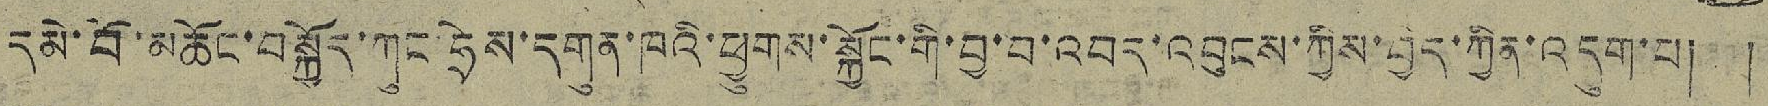དམེ་བོ་མཆོང་བསྐྱོད་ཀུང་ཧྲེས་དགུན་ཁའི་ཕྱུགས་སྐྱོང་གི་བྱ་བ་འབད་འབུངས་ཀྱིས་བྱེད་ཀྱིན་འདུག་པ། །
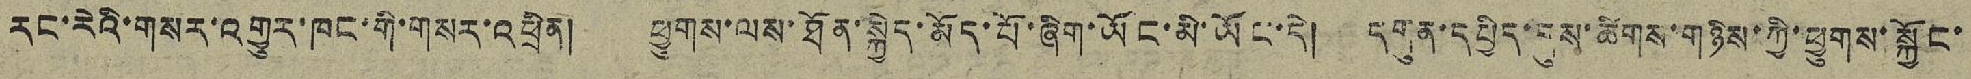རང་རེའི་གསར་འགྱུར་ཁང་གི་གསར་འཕྲིན། ཕྱུགས་ལས་ཐོན་སྐྱེད་མོད་པོ་ཞིག་ཡོང་མི་ཡོག་དེ། དགུན་དཔྱིད་དུས་ཚིགས་གཉིས་ཀྱི་ཕྱུགས་སྐྱོང་
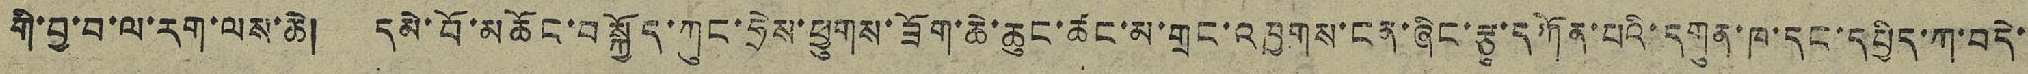གི་བྱ་བ་ལ་རག་ལས་ཆེ། དམེ་བོ་མཆོང་བསྐྱོད་ཀུང་ཧྲེས་ཕྱུགས་ཟོག་ཆེ་ཆུང་ཚང་མ་གྲང་འཁྱགས་ངན་ཞིང་རྩྭ་དཀོན་པའི་དགུན་ཁ་དང་དཔྱིད་ཀ་བདེ་
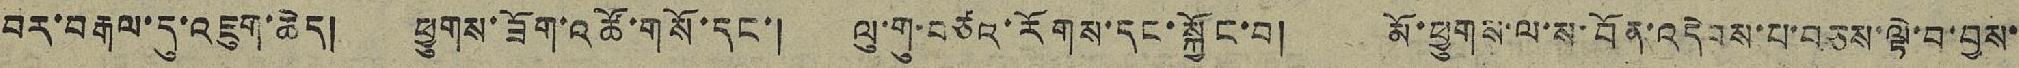བར་བརྒལ་དུ་འཇུག་ཆེད། ཕྱུགས་ཟོག་འཚོ་གསོ་དང་། ལུ་གུ་བཙའ་རོགས་དང་སྐྱོང་བ། མོ་ཕྱུགས་ལ་ས་བོན་འདེབས་པ་བཅས་ལྟེ་བ་བྱས་
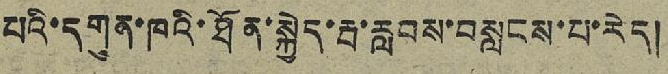པའི་དགུན་ཁའི་ཐོན་སྐྱེད་རྦ་རླབས་བསླངས་པ་རེད།
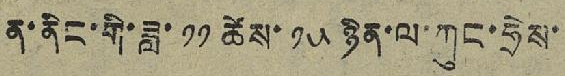ན་ནིང་གི་ཟླ་ ༡༡ ཚེས་ ༡༥ ཉིན་ལ་ཀུང་ཧྲེས་
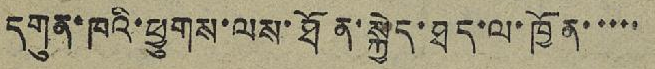དགུན་ཁའི་ཕྱུགས་ལས་ཐོན་སྐྱེད་ཐད་ལ་ཁྱོན་་་་་
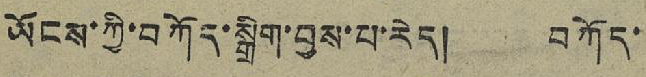ཡོངས་ཀྱི་བཀོད་སྒྲིག་བྱས་པ་རེད། བཀོད་
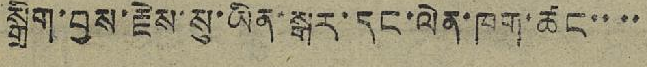སྒྲིག་བྱས་རྗེས་སུ་ཡིན་སྒར་དང་ལེན་ཁག་ཚང་་་་
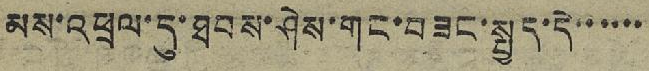མས་འཕྲལ་དུ་ཐབས་ཤེས་གང་བཟང་སྦྱད་དེ་་་་་་
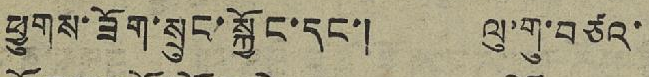ཕྱུགས་ཟོག་སྲུང་སྐྱོང་དང་། ལུ་གུ་བཙའ་
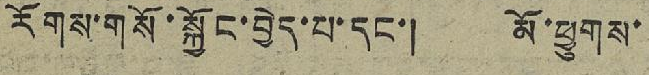རོགས་གསོ་སྐྱོང་བྱེད་པ་དང་། མོ་ཕྱུགས་
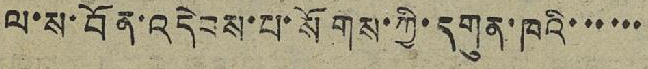ལ་ས་བོན་འདེབས་པ་སོགས་ཀྱི་དགུན་ཁའི་་་་་་
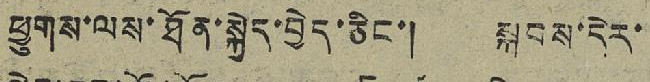ཕྱུགས་ལས་ཐོན་སྐྱེད་བྱེད་ཅིང་། སྐབས་དེར་
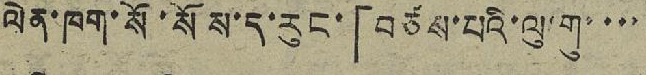ལེན་ཁག་སོ་སོས་ད་རུང་「བཙས་པའི་ལུ་གུ་་་་
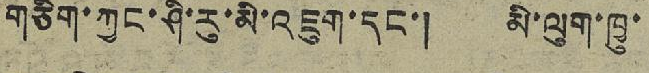གཅིག་ཀྱང་ཤི་རུ་མི་འཇུག་དང་། མི་ལུག་ཁྱུ་
